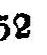52
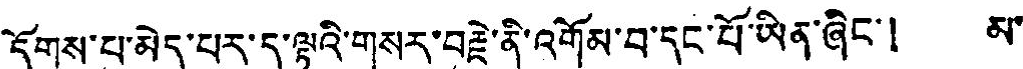དོགས་པ་མེད་པར་ད་ལྟའི་གསར་བརྗེ་ནི་འགོམ་བ་དང་པོ་ཡིན་ཞིང་། མ་
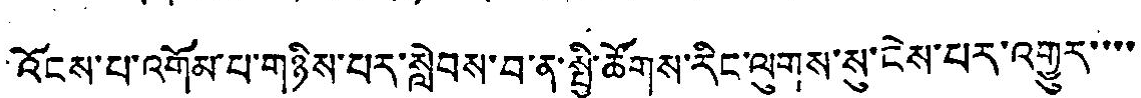འོངས་པ་འགོམ་པ་གཉིས་པར་སླེབས་བ་ན་སྤྱི་ཚོགས་རིང་ལུགས་སུ་ངེས་པར་འགྱུར་་་་
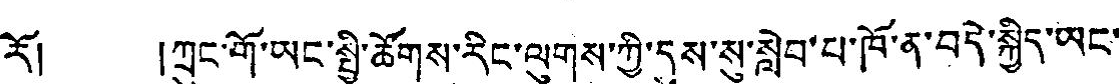རོ། །ཀྲུང་གོ་ཡང་སྤྱི་ཚོགས་རིང་ལུགས་ཀྱི་དུས་སུ་སླེབ་པ་ཁོ་ན་བདེ་སྐྱིད་ཡང་
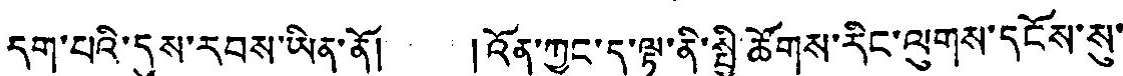དག་པའི་དུས་རབས་ཡིན་ནོ། །འོན་ཀྱང་ད་ལྟ་ནི་སྤྱི་ཚོགས་རིང་ལུགས་དངོས་སུ་
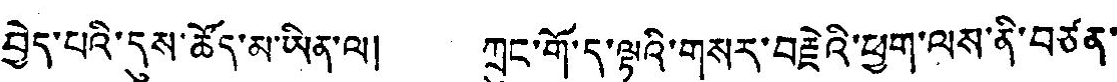བྱེད་པའི་དུས་ཚོད་མ་ཡིན་ལ། ཀྲུང་གོ་ད་ལྟའི་གསར་བརྗེའི་ཕྱག་ལས་ནི་བཙན་
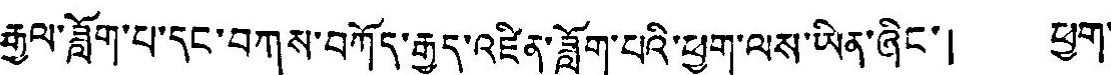རྒྱལ་ཟློག་པ་དང་བཀས་བཀོད་རྒྱུད་འཛིན་ཟློག་པའི་ཕྱུག་ལས་ཡིན་ཞིང་། ཕྱག་
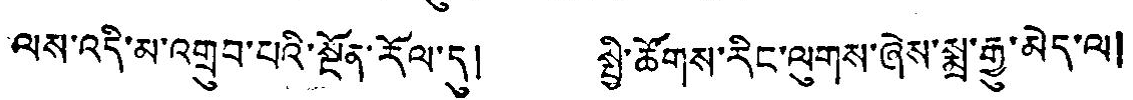ལས་འདི་མ་འགྲུབ་པའི་སྔོན་རོལ་དུ། སྤྱི་ཚོགས་རིང་ལུགས་ཞེས་སྨྲ་རྒྱུ་མེད་ལ།
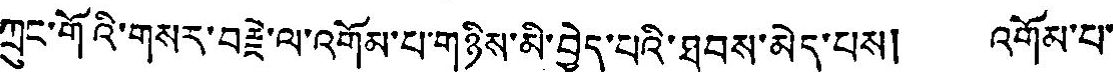ཀྲུང་གོའི་གསར་བརྗེ་ལ་འགོམ་པ་གཉིས་མི་བྱེད་པའི་ཐབས་མེད་པས། འགོམ་པ་
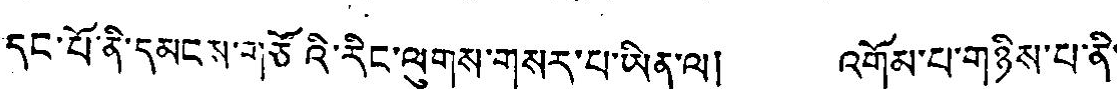དང་པོ་ནི་དམངས་གཙོའི་རིང་ལུགས་གསར་པ་ཡིན་ལ། འགོམ་པ་གཉིས་པ་ནི་
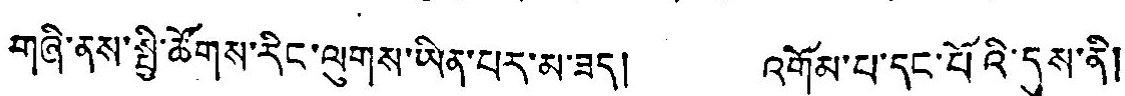གཞི་ནས་སྤྱི་ཚོགས་རིང་ལུགས་ཡིན་པར་མ་ཟད། འགོམ་པ་དང་པོའི་དུས་ནི།
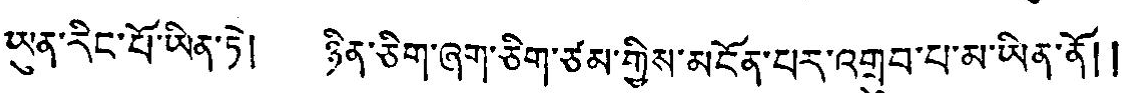ཡུན་རིང་པོ་ཡིན་ཏེ། ཉིན་ཅིག་ཞག་ཅིག་ཙམ་གྱིས་མངོན་པར་འགྲུབ་པ་མ་ཡིན་ནོ།།
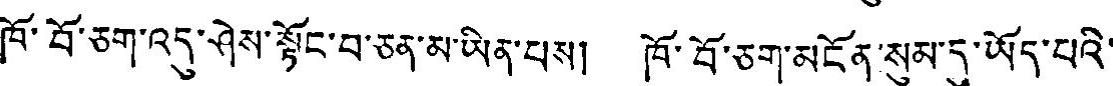ཁོ་བོ་ཅག་འདུ་ཤེས་སྟོང་བ་ཅན་མ་ཡིན་པས། ཁོ་བོ་ཅག་མངོན་སུམ་དུ་ཡོད་པའི་
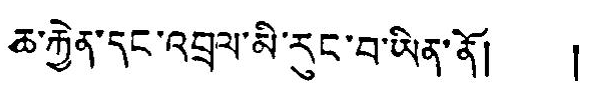ཆ་རྐྱེན་དང་འབྲལ་མི་རུང་བ་ཡིན་ནོ། །
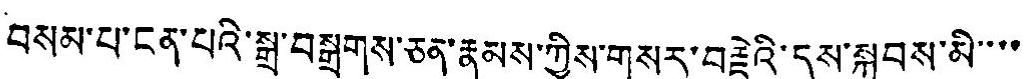བསམ་པ་ངན་པའི་སྒྲ་བསྒྲགས་ཅན་རྣམས་ཀྱིས་གསར་བརྗེའི་དུས་སྐབས་མི་་་་
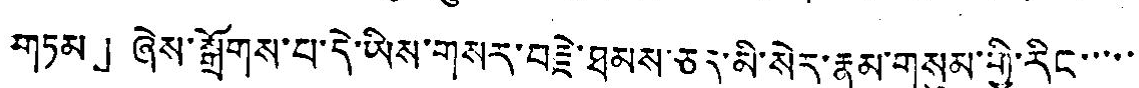གཏམ」ཞེས་སྒྲོགས་བ་དེ་ཡིས་གསར་བརྗེ་ཐམས་ཅན་མི་སེར་རྣམ་གསུམ་གྱི་རིང་་་་་
